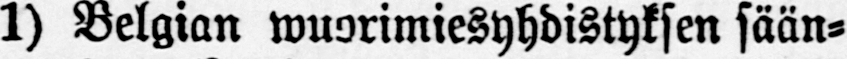1) Belgian wuorimiesyhdistyksen sään-
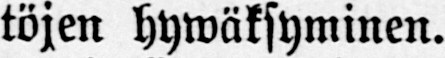töjen hywäksyminen.
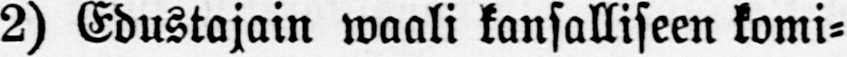2) Edustajain waali kansalliseen komi-
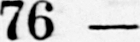76
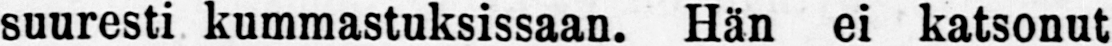suuresti kummastuksissaan. Hän ei katsonut
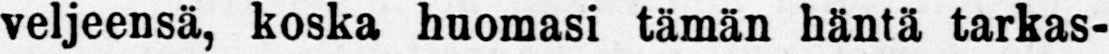veljeensä, koska huomasi tämän häntä tarkas-
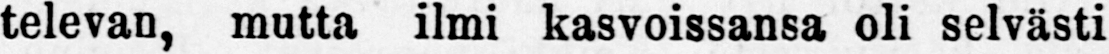televan, mutta ilmi kasvoissansa oli selvästi
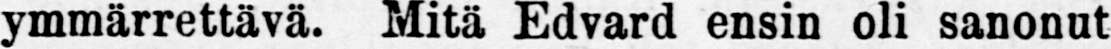ymmärrettävä. Mitä Edvard ensin oli sanonut
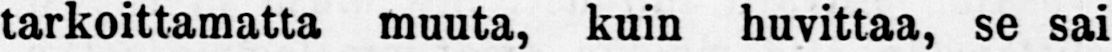tarkoittamatta muuta, kuin huvittaa, se sai
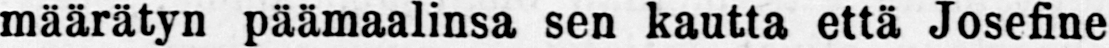määrätyn päämaalinsa sen kautta että Josefine
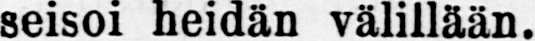seisoi heidään välillään.
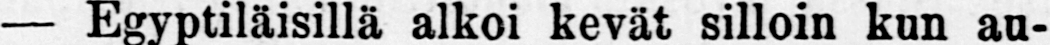— Egyptiläisillä alkoi kevät silloin kun au-
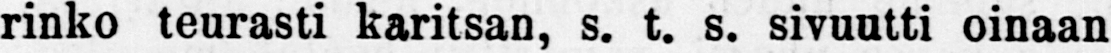rinko teurasti karitsan, s. t. s. sivuutti oinaan
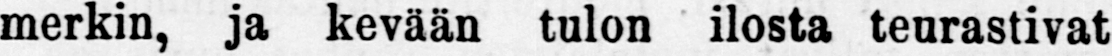merkin, ja kevään tulon ilosta teurastivat
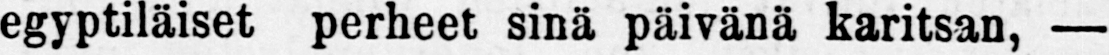egyptiläiset perheet sinä päivänä karitsan, —
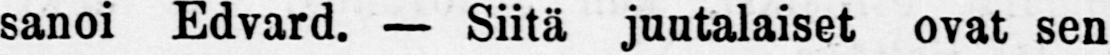sanoi Edvard. — Siitä juutalaiset ovat sen
